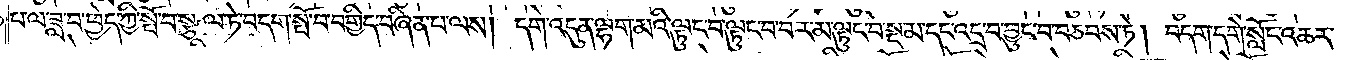པ་ལ་ཟླ་བ་ཕྱེད་ཀྱི་སྤོ་བ་སྩལ་ཏེ་བདག་སྤོ་བ་བགྱིད་བཞིན་པ་ལས། དགེ་འདུན་ལྷག་མའི་ལྟུང་བ་ལྟུང་བ་བར་མ་ལྟུང་བ་སྔ་མ་དང་འདྲ་བ་བྱུང་བ་བཅབས་ཏེ། བདག་དགེ་སློང་འཆར་
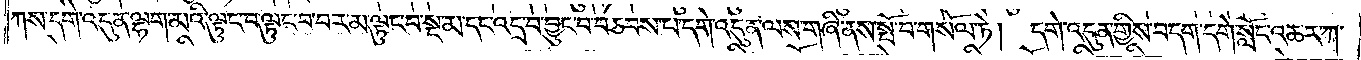ཀས་དགེ་འདུན་ལྷག་མའི་ལྟུང་བ་ལྟུང་བ་བར་མ་ལྟུང་བ་སྔ་མ་དང་འདྲ་བ་བྱུང་བ་བཅབས་པ་དགེ་འདུན་ལས་གཞི་ནས་སྤོ་བ་གསོལ་ཏེ། དགེ་འདུན་གྱིས་བདག་དགེ་སློང་འཆར་ཀ་
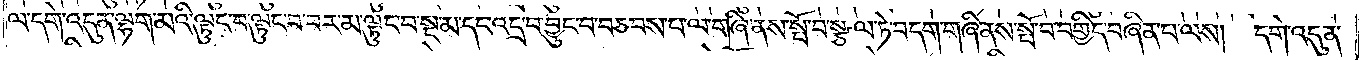ལ་དགེ་འདུན་ལྷག་མའི་ལྟུང་བ་ལྟུང་བ་བར་མ་ལྟུང་བ་སྔ་མ་དང་འདྲ་བ་བྱུང་བ་བཅབས་པ་ལ་གཞི་ནས་སྤོ་བ་སྩལ་ཏེ་བདག་གཞི་ནས་སྤོ་བ་བགྱིད་བཞིན་པ་ལས། དགེ་འདུན་
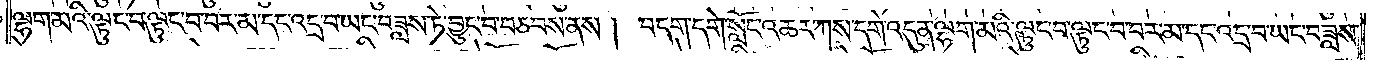ལྷག་མའི་ལྟུང་བ་ལྟུང་བ་བར་མ་དང་འདྲ་བ་ཡང་བཟླས་ཏེ་བྱུང་བ་བཅབས་ནས། བདག་དགེ་སློང་འཆར་ཀས་དགེ་འདུན་ལྷག་མའི་ལྟུང་བ་ལྟུང་བ་བར་མ་དང་འདྲ་བ་ཡང་བཟླས་
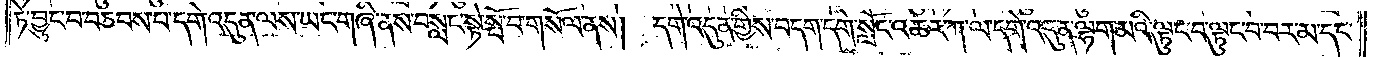ཏེ་བྱུང་བ་བཅབས་པ་དགེ་འདུན་ལས་ཡང་གཞི་ནས་བསླང་སྟེ་སྤོ་བ་གསོལ་ནས། དགེ་འདུན་གྱིས་བདག་དགེ་སློང་འཆར་ཀ་ལ་དགེ་འདུན་ལྷག་མའི་ལྟུང་བ་ལྟུང་བ་བར་མ་དང་
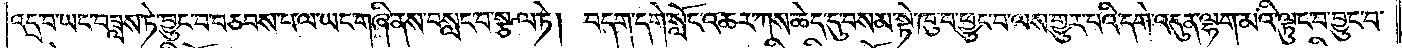འདྲ་བ་ཡང་བཟླས་ཏེ་བྱུང་བ་བཅབས་པ་ལ་ཡང་གཞི་ནས་བསླང་བ་སྩལ་ཏེ། བདག་དགེ་སློང་འཆར་ཀས་ཆེད་དུ་བསམ་སྟེ་ཁུ་བ་ཕྱུང་བ་ལས་གྱུར་པའི་དགེ་འདུན་ལྷག་མའི་ལྟུང་བ་བྱུང་བ་
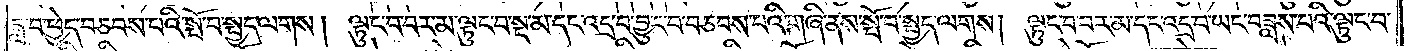ཟླ་བ་ཕྱེད་བཅབས་པའི་སྤོ་བ་སྤྱད་ལགས། ལྟུང་བ་བར་མ་ལྟུང་བ་སྔ་མ་དང་འདྲ་བ་བྱུང་བ་བཅབས་པའི་གཞི་ནས་སྤོ་བ་སྤྱད་ལགས། ལྟུང་བ་བར་མ་དང་འདྲ་བ་ཡང་བཟླས་པའི་ལྟུང་བ་
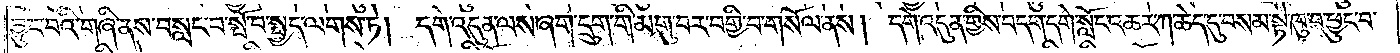བྱུང་བའི་གཞི་ནས་བསླང་བ་སྤོ་བ་སྤྱད་ལགས་ཏེ། དགེ་འདུན་ལས་ཞག་དྲུག་གི་མགུ་བར་བགྱི་བ་གསོལ་ནས། དགེ་འདུན་གྱིས་བདག་དགེ་སློང་འཆར་ཀ་ཆེད་དུ་བསམ་སྟེ་ཁུ་བ་ཕྱུང་བ་
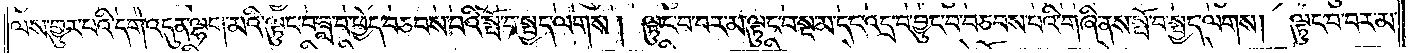ལས་གྱུར་པའི་དགེ་འདུན་ལྷག་མའི་ལྟུང་བ་ཟླ་བ་ཕྱེད་བཅབས་པའི་སྤོ་བ་སྤྱད་ལགས། ལྟུང་བ་བར་མ་ལྟུང་བ་སྔ་མ་དང་འདྲ་བ་བྱུང་བ་བཅབས་པའི་གཞི་ནས་སྤོ་བ་སྤྱད་ལགས། ལྟུང་བ་བར་མ་
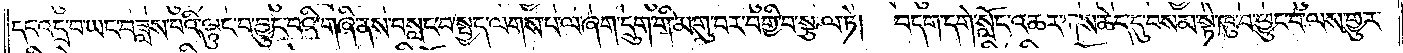དང་འདྲ་བ་ཡང་བཟླས་པའི་ལྟུང་བ་བྱུང་བའི་གཞི་ནས་བསླང་བ་སྤྱད་ལགས་པ་ལ་ཞག་དྲུག་གི་མགུ་བར་བགྱི་བ་སྩལ་ཏེ། བདག་དགེ་སློང་འཆར་ཀས་ཆེད་དུ་བསམ་སྟེ་ཁུ་བ་ཕྱུང་བ་ལས་གྱུར་
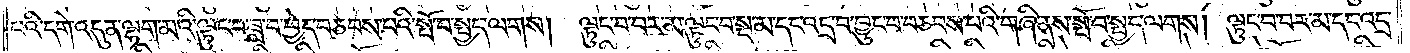པའི་དགེ་འདུན་ལྷག་མའི་ལྟུང་བ་ཟླ་བ་ཕྱེད་བཅབས་པའི་སྤོ་བ་སྤྱད་ལགས།  ལྟུང་བ་བར་མ་ལྟུང་བ་སྔ་མ་དང་འདྲ་བ་བྱུང་བ་བཅབས་པའི་གཞི་ནས་སྤོ་བ་སྤྱད་ལགས། ལྟུང་བ་བར་མ་དང་འདྲ་
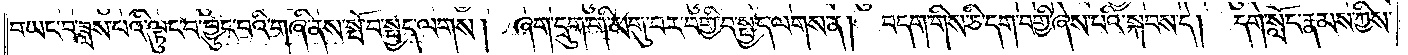བ་ཡང་བཟླས་པའི་ལྟུང་བ་བྱུང་བའི་གཞི་ནས་སྤོ་བ་སྤྱད་ལགས། ཞག་དྲུག་གི་མགུ་བར་བགྱི་བ་སྤྱད་ལགས་ན། བདག་གིས་ཅི་དག་བགྱི་ཞེས་པའི་སྐབས་དེ། དགེ་སློང་རྣམས་ཀྱིས་
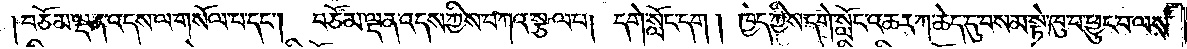བཅོམ་ལྡན་འདས་ལ་གསོལ་པ་དང༌། བཅོམ་ལྡན་འདས་ཀྱིས་བཀའ་སྩལ་པ། དགེ་སློང་དག། ཁྱེད་ཀྱིས་དགེ་སློང་འཆར་ཀ་ཆེད་དུ་བསམ་སྟེ་ཁུ་བ་ཕྱུང་བ་ལས་
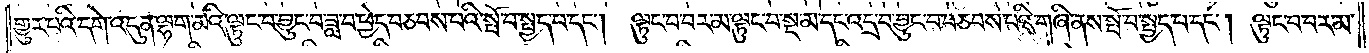གྱུར་པའི་དགེ་འདུན་ལྷག་མའི་ལྟུང་བ་བྱུང་བ་ཟླ་བ་ཕྱེད་བཅབས་པའི་སྤོ་བ་སྤྱད་པ་དང༌། ལྟུང་བ་བར་མ་ལྟུང་བ་སྔ་མ་དང་འདྲ་བ་བྱུང་བ་བཅབས་པའི་གཞི་ནས་སྤོ་བ་སྤྱད་པ་དང༌། ལྟུང་བ་བར་མ་
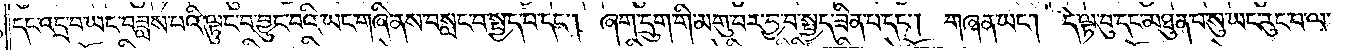དང་འདྲ་བ་ཡང་བཟླས་པའི་ལྟུང་བ་བྱུང་བའི་ཡང་གཞི་ནས་བསླང་བ་སྤྱད་པ་དང༌། ཞག་དྲུག་གི་མགུ་བར་བྱ་བ་སྤྱད་ཟིན་པ་དང༌། གཞན་ཡང༌། དེ་ལྟ་བུ་དང་མཐུན་པ་སུ་ཡང་རུང་བ་ལ་
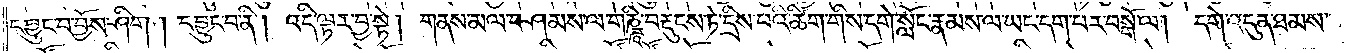དབྱུང་བ་བྱོས་ཤིག །དབྱུང་བ་ནི། འདི་ལྟར་བྱ་སྟེ། གནས་མལ་བཤམས་ལ་གཎྜཱི་བརྡུངས་ཏེ་དྲིས་པའི་ཚིག་གིས་དགེ་སློང་རྣམས་ལ་ཡང་དག་པར་བསྒོ་ལ། དགེ་འདུན་ཐམས་
